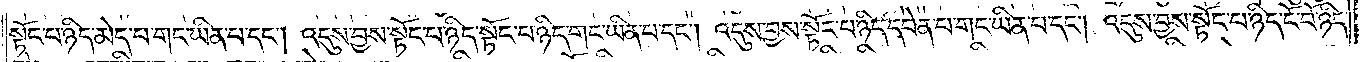སྟོང་པ་ཉིད་མེད་པ་གང་ཡིན་པ་དང༌། འདུས་བྱས་སྟོང་པ་ཉིད་སྟོང་པ་ཉིད་གང་ཡིན་པ་དང༌། འདུས་བྱས་སྟོང་པ་ཉིད་དབེན་པ་གང་ཡིན་པ་དང༌། འདུས་བྱས་སྟོང་པ་ཉིད་ངོ་བོ་ཉིད་
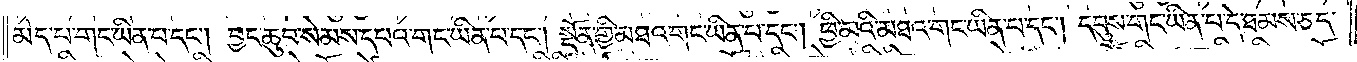མེད་པ་གང་ཡིན་པ་དང༌། བྱང་ཆུབ་སེམས་དཔའ་གང་ཡིན་པ་དང༌། སྔོན་གྱི་མཐའ་གང་ཡིན་པ་དང༌། ཕྱི་མའི་མཐའ་གང་ཡིན་པ་དང༌། དབུས་གང་ཡིན་པ་དེ་ཐམས་ཅད་
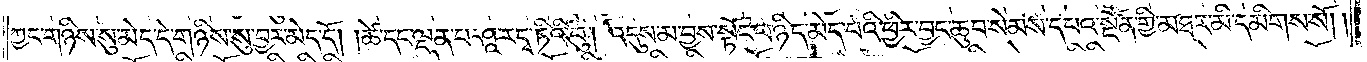ཀྱང་གཉིས་སུ་མེད་དེ་གཉིས་སུ་བྱར་མེད་དོ། །ཚེ་དང་ལྡན་པ་ཤཱ་རདྭ་ཏིའི་བུ། འདུས་མ་བྱས་སྟོང་པ་ཉིད་མེད་པའི་ཕྱིར་བྱང་ཆུབ་སེམས་དཔའ་སྔོན་གྱི་མཐར་མི་དམིགས་སོ། །
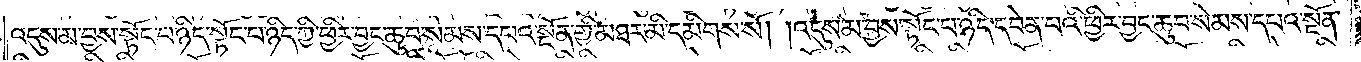འདུས་མ་བྱས་སྟོང་པ་ཉིད་སྟོང་པ་ཉིད་ཀྱི་ཕྱིར་བྱང་ཆུབ་སེམས་དཔའ་སྔོན་གྱི་མཐར་མི་དམིགས་སོ། །འདུས་མ་བྱས་སྟོང་པ་ཉིད་དབེན་པའི་ཕྱིར་བྱང་ཆུབ་སེམས་དཔའ་སྔོན་
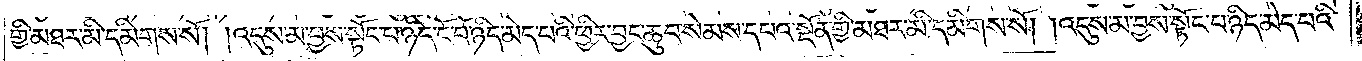གྱི་མཐར་མི་དམིགས་སོ། །འདུས་མ་བྱས་སྟོང་པ་ཉིད་ངོ་བོ་ཉིད་མེད་པའི་ཕྱིར་བྱང་ཆུབ་སེམས་དཔའ་སྔོན་གྱི་མཐར་མི་དམིགས་སོ། །འདུས་མ་བྱས་སྟོང་པ་ཉིད་མེད་པའི་
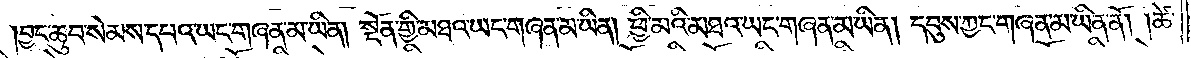བྱང་ཆུབ་སེམས་དཔའ་ཡང་གཞན་མ་ཡིན། སྔོན་གྱི་མཐའ་ཡང་གཞན་མ་ཡིན། ཕྱི་མའི་མཐའ་ཡང་གཞན་མ་ཡིན། དབུས་ཀྱང་གཞན་མ་ཡིན་ནོ། །ཚེ་
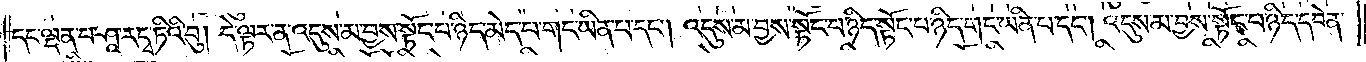དང་ལྡན་པ་ཤཱ་རདྭ་ཏིའི་བུ། དེ་ལྟར་ན་འདུས་མ་བྱས་སྟོང་པ་ཉིད་མེད་པ་གང་ཡིན་པ་དང༌། འདུས་མ་བྱས་སྟོང་པ་ཉིད་སྟོང་པ་ཉིད་གང་ཡིན་པ་དང༌། འདུས་མ་བྱས་སྟོང་པ་ཉིད་དབེན་
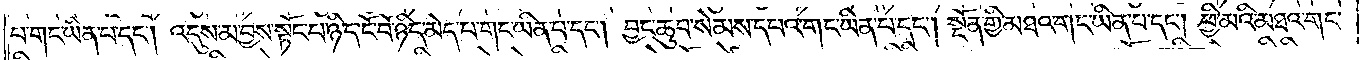པ་གང་ཡིན་པ་དང༌། འདུས་མ་བྱས་སྟོང་པ་ཉིད་ངོ་བོ་ཉིད་མེད་པ་གང་ཡིན་པ་དང༌། བྱང་ཆུབ་སེམས་དཔའ་གང་ཡིན་པ་དང༌། སྔོན་གྱི་མཐའ་གང་ཡིན་པ་དང༌། ཕྱི་མའི་མཐའ་གང་
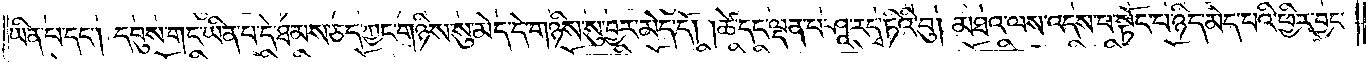ཡིན་པ་དང༌། དབུས་གང་ཡིན་པ་དེ་ཐམས་ཅད་ཀྱང་གཉིས་སུ་མེད་དེ་གཉིས་སུ་བྱར་མེད་དོ། །ཚེ་དང་ལྡན་པ་ཤཱ་རདྭ་ཏིའི་བུ། མཐའ་ལས་འདས་པ་སྟོང་པ་ཉིད་མེད་པའི་ཕྱིར་བྱང་
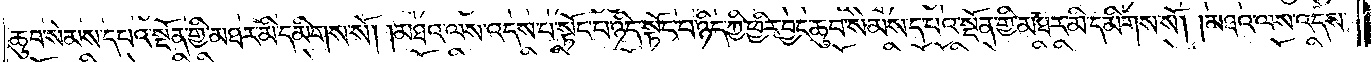ཆུབ་སེམས་དཔའ་སྔོན་གྱི་མཐར་མི་དམིགས་སོ། །མཐའ་ལས་འདས་པ་སྟོང་པ་ཉིད་སྟོང་པ་ཉིད་ཀྱི་ཕྱིར་བྱང་ཆུབ་སེམས་དཔའ་སྔོན་གྱི་མཐར་མི་དམིགས་སོ། །མཐའ་ལས་འདས་
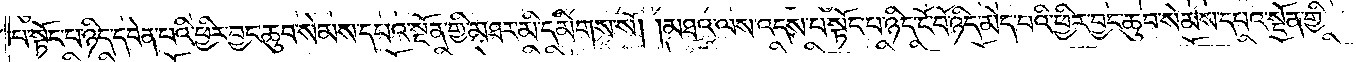པ་སྟོང་པ་ཉིད་དབེན་པའི་ཕྱིར་བྱང་ཆུབ་སེམས་དཔའ་སྔོན་གྱི་མཐར་མི་དམིགས་སོ། །མཐའ་ལས་འདས་པ་སྟོང་པ་ཉིད་ངོ་བོ་ཉིད་ངོ་བོ་ཉིད་མེད་པའི་ཕྱིར་བྱང་ཆུབ་སེམས་དཔའ་སྔོན་གྱི་
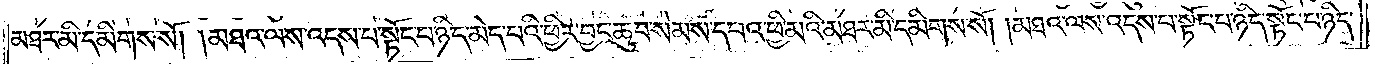མཐར་མི་དམིགས་སོ། །མཐའ་ལས་འདས་པ་སྟོང་པ་ཉིད་མེད་པའི་ཕྱིར་བྱང་ཆུབ་སེམས་དཔའ་ཕྱི་མའི་མཐར་མི་དམིགས་སོ། །མཐའ་ལས་འདས་པ་སྟོང་པ་ཉིད་སྟོང་པ་ཉིད་
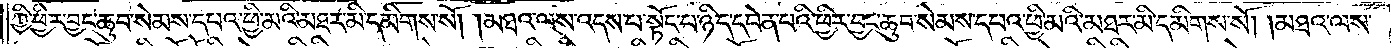ཀྱི་ཕྱིར་བྱང་ཆུབ་སེམས་དཔའ་ཕྱི་མའི་མཐར་མི་དམིགས་སོ། །མཐའ་ལས་འདས་པ་སྟོང་པ་ཉིད་དབེན་པའི་ཕྱིར་བྱང་ཆུབ་སེམས་དཔའ་ཕྱི་མའི་མཐར་མི་དམིགས་སོ། །མཐའ་ལས་
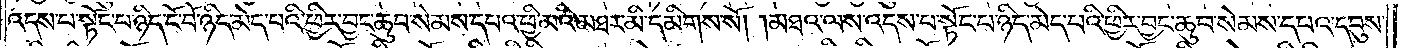འདས་པ་སྟོང་པ་ཉིད་ངོ་བོ་ཉིད་མེད་པའི་ཕྱིར་བྱང་ཆུབ་སེམས་དཔའ་ཕྱི་མའི་མཐར་མི་དམིགས་སོ། །མཐའ་ལས་འདས་པ་སྟོང་པ་ཉིད་མེད་པའི་ཕྱིར་བྱང་ཆུབ་སེམས་དཔའ་དབུས་
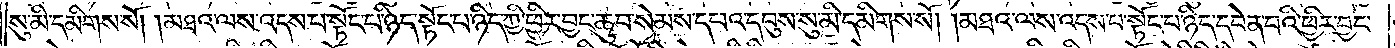སུ་མི་དམིགས་སོ། །མཐའ་ལས་འདས་པ་སྟོང་པ་ཉིད་སྟོང་པ་ཉིད་ཀྱི་ཕྱིར་བྱང་ཆུབ་སེམས་དཔའ་དབུས་སུ་མི་དམིགས་སོ། །མཐའ་ལས་འདས་པ་སྟོང་པ་ཉིད་དབེན་པའི་ཕྱིར་བྱང་
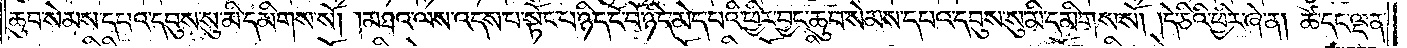ཆུབ་སེམས་དཔའ་དབུས་སུ་མི་དམིགས་སོ། །མཐའ་ལས་འདས་པ་སྟོང་པ་ཉིད་ངོ་བོ་ཉིད་མེད་པའི་ཕྱིར་བྱང་ཆུབ་སེམས་དཔའ་དབུས་སུ་མི་དམིགས་སོ༑ ༑དེ་ཅིའི་ཕྱིར་ཞེ་ན། ཚེ་དང་ལྡན་
